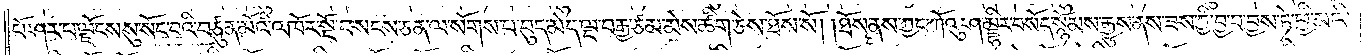པོ་ཤར་པ་ལྗོངས་སུ་སོང་བའི་བཙུན་མོའི་འཁོར་སྔོ་བསངས་ཅན་ལ་སོགས་པ་བུད་མེད་ལྔ་བརྒྱ་ཙམ་མེས་ཚིག་ཅེས་ཐོས་སོ། །ཐོས་ནས་ཀྱང་ཀོའུ་ཤམྦྷིར་བསོད་སྙོམས་རྒྱུས་ནས་ཟས་ཀྱི་བྱ་བ་བྱས་ཏེ་ཕྱི་མའི་
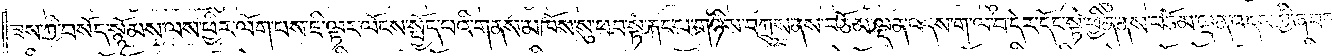ཟས་ཀྱི་བསོད་སྙོམས་ལས་ཕྱིར་ལོག་པས་ཇི་ལྟར་ལོངས་སྤྱོད་པའི་གནས་མཁོས་སུ་ཕབ་སྟེ་རྐང་པ་གཉིས་བཀྲུས་ནས་བཅོམ་ལྡན་འདས་ག་ལ་བ་དེར་སོང་སྟེ་ཕྱིན་ནས་བཅོམ་ལྡན་འདས་ཀྱི་ཞབས་
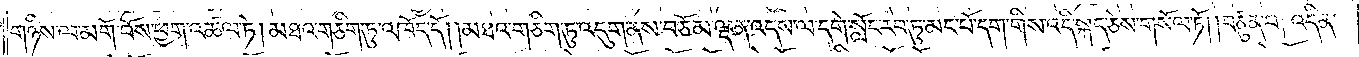གཉིས་ལ་མགོ་བོས་ཕྱག་འཚལ་ཏེ། མཐའ་གཅིག་ཏུ་འཁོད་དོ། །མཐའ་གཅིག་ཏུ་འདུག་ནས་བཅོམ་ལྡན་འདས་ལ་དགེ་སློང་རབ་ཏུ་མང་པོ་དག་གིས་འདི་སྐད་ཅེས་གསོལ་ཏོ། །བཙུན་པ། འདི་ན་
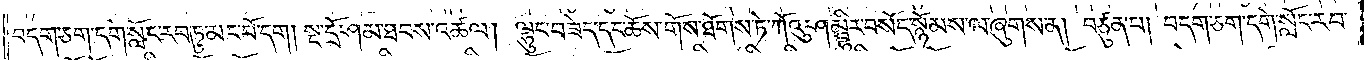བདག་ཅག་དགེ་སློང་རབ་ཏུ་མང་པོ་དག །སྔ་དྲོ་ཤམ་ཐབས་འཚལ། ལྷུང་བཟེད་དང་ཆོས་གོས་ཐོགས་ཏེ་ཀོའུ་ཤམྦྷིར་བསོད་སྙོམས་ལ་ཞུགས་ན། བཙུན་པ། བདག་ཅག་དགེ་སློང་རབ་
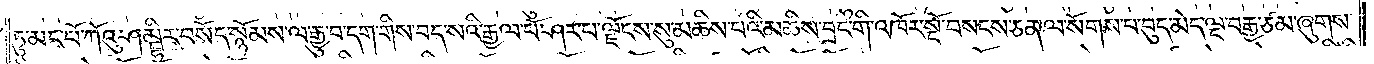ཏུ་མང་པོ་ཀོའུ་ཤམྦྷིར་བསོད་སྙོམས་ལ་རྒྱུ་བ་དག་གིས་བད་སའི་རྒྱལ་པོ་ཤར་པ་ལྗོངས་སུ་མཆིས་པའི་མཆིས་བྲང་གི་འཁོར་སྔོ་བསངས་ཅན་ལ་སོགས་པ་བུད་མེད་ལྔ་བརྒྱ་ཙམ་ཞུགས་
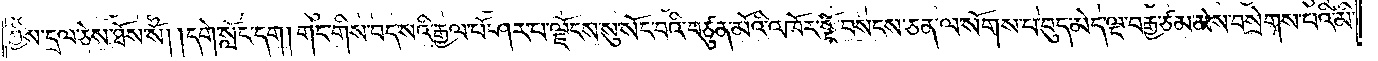ཀྱིས་དྲལ་ཅེས་ཐོས་སོ། །དགེ་སློང་དག །གང་གིས་བད་སའི་རྒྱལ་པོ་ཤར་པ་ལྗོངས་སུ་སོང་བའི་བཙུན་མོའི་འཁོར་སྔོ་བསངས་ཅན་ལ་སོགས་པ་བུད་མེད་ལྔ་བརྒྱ་ཙམ་མེས་བསྲེགས་པའི་མི་
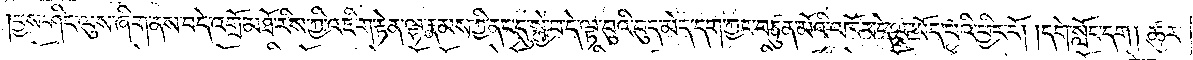བྱས་ཤིང་ལུས་ཞིག་ནས་བདེ་འགྲོ་མཐོ་རིས་ཀྱི་འཇིག་རྟེན་ལྷ་རྣམས་ཀྱི་ནང་དུ་སྐྱེ་བ་དེ་ལྟ་བུའི་བུད་མེད་དག་ཀྱང་བཙུན་མོའི་འཁོར་དེ་ལ་ཡོད་པའི་ཕྱིར་རོ། །དགེ་སློང་དག །ཚུར་
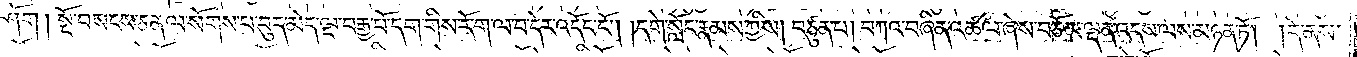ཤོག །སྔོ་བསངས་ཅན་ལ་སོགས་པ་བུད་མེད་ལྔ་བརྒྱ་པོ་དག་གིས་རོ་ག་ལ་བ་དེར་འདོང་ངོ༌། །དགེ་སློང་རྣམས་ཀྱིས། བཙུན་པ། བཀའ་བཞིན་འཚལ་ཞེས་བཅོམ་ལྡན་འདས་ལས་མཉན་ཏོ། །དེ་ནས་
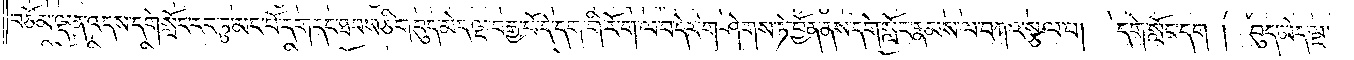བཅོམ་ལྡན་འདས་དགེ་སློང་རབ་ཏུ་མང་པོ་དག་དང་ཐབས་ཅིག་བུད་མེད་ལྔ་བརྒྱ་པོ་དེ་དག་གི་རོ་ག་ལ་བ་དེར་གཤེགས་ཏེ་བྱོན་ནས་དགེ་སློང་རྣམས་ལ་བཀའ་སྩལ་པ། དགེ་སློང་དག །བུད་མེད་ལྔ་
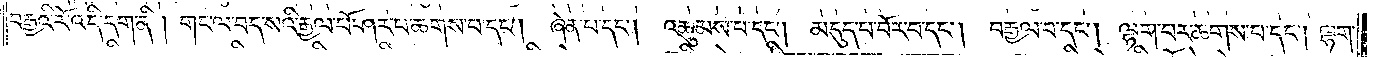བརྒྱའི་རོ་འདི་དག་ནི། གང་ལ་བད་སའི་རྒྱལ་པོ་ཤར་པ་ཆགས་པ་དང༌། ཞེན་པ་དང༌། འཆུམས་པ་དང༌། མདུད་པ་བོར་བ་དང༌། བརྒྱལ་པ་དང༌། ལྷག་པར་ཆགས་པ་དང༌། ལྷག་
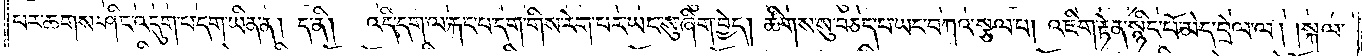པར་ཆགས་ཤིང་འདུག་པ་དག་ཡིན་ན། ད་ནི། འདི་དག་ལ་རྐང་པ་དག་གིས་རེག་པར་ཡང་སུ་ཞིག་བྱེད། ཚིགས་སུ་བཅད་པ་ཡང་བཀའ་སྩལ་པ། འཇིག་རྟེན་སྙིང་པོ་མེད་བྲེལ་ལ། །སྐལ་
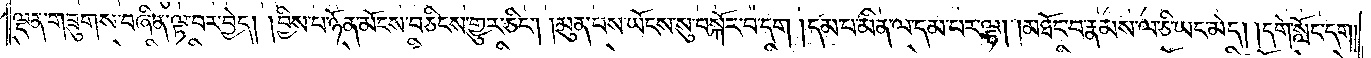ལྡན་གཟུགས་བཞིན་ལྟ་བར་བྱེད། །བྱིས་པ་ཉོན་མོངས་བཅིངས་གྱུར་ཅིང༌། །མུན་པས་ཡོངས་སུ་བསྐོར་བ་དག །དམ་པ་མིན་ལ་དམ་པར་ལྟ། །མཐོང་བ་རྣམས་ལ་ཅི་ཡང་མེད། །དགེ་སློང་དག།
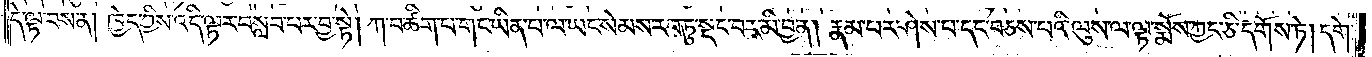དེ་ལྟ་བས་ན། ཁྱེད་ཀྱིས་འདི་ལྟར་བསླབ་པར་བྱ་སྟེ། ཀ་བ་ཚིག་པ་གང་ཡིན་པ་ལ་ཡང་སེམས་རབ་ཏུ་སྡང་བར་མི་བྱ་ན། རྣམ་པར་ཤེས་པ་དང་བཅས་པའི་ལུས་ལ་ལྟ་སྨོས་ཀྱང་ཅི་དགོས་ཏེ། དགེ་
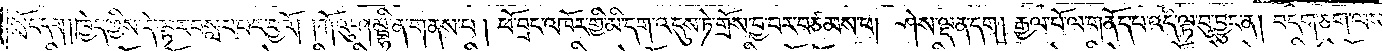སློང་དག །ཁྱེད་ཀྱིས་དེ་ལྟར་བསླབ་པར་བྱའོ། །ཀོའུ་ཤམྦྷི་ན་གནས་པ། ཕོ་བྲང་འཁོར་གྱི་མི་དག་འདུས་ཏེ་གྲོས་བྱ་བར་བཙམས་པ། ཤེས་ལྡན་དག །རྒྱལ་པོ་ལ་གནོད་པ་འདི་ལྟ་བུ་བྱུང་ན། བདག་ཅག་ལས་
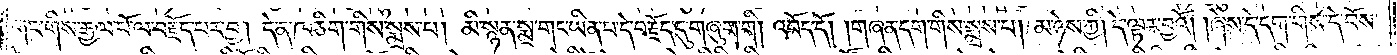གང་གིས་རྒྱལ་པོ་ལ་བརྗོད་པར་བྱ། དེ་ན་ཁ་ཅིག་གིས་སྨྲས་པ། མི་སྙན་སྨྲ་གང་ཡིན་པ་དེ་བརྗོད་དུ་གཞུག་གི །འབོད་དོ། །གཞན་དག་གིས་སྨྲས་པ། མ་ཉེས་ཀྱི། དེ་ལྟར་བྱའོ། །ཞེས་དེ་དག་གིས་དེ་བོས་
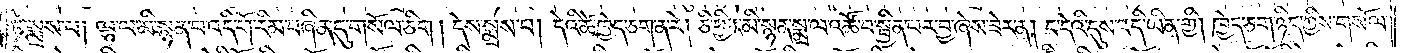ཏེ་སྨྲས་པ། ལྷ་ལ་མི་སྙན་པ་འདི་གོ་རིམ་བཞིན་དུ་གསོལ་ཅིག །དེས་སྨྲས་པ། དེའི་ཚེ་ཁྱེད་ཅག་ན་རེ། ཅི་ཕྱིར་མི་སྙན་སྨྲ་ལ་འཚོ་བ་སྦྱིན་པར་བྱ་ཞེས་ཟེར་ན། ང་དེའི་དུས་འདི་ཡིན་གྱི། ཁྱེད་ཅག་ཉིད་ཀྱིས་གསོལ་
